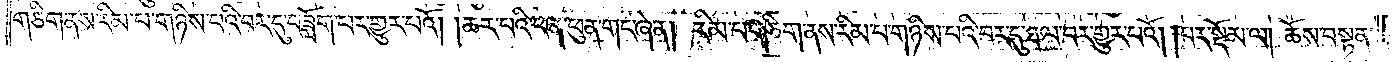གཅིག་ནས་རིམ་པ་གཉིས་པའི་བར་དུ་བཟློག་པར་གྱུར་པའོ། །ཆར་པའི་ཕན་ཕུན་གང་ཞེ་ན། རིམ་པ་གཅིག་ནས་རིམ་པ་གཉིས་པའི་བར་དུ་ཐལ་བར་གྱུར་པའོ། །བར་སྡོམ་ལ། ཆོས་བསྟན་
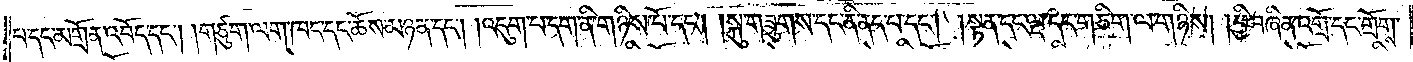པ་དང་མགྲོན་འབོད་དང༌། །གཙུག་ལག་ཁང་དང་ཆོས་མཉན་དང༌། །འདུག་པ་དག་ནི་གཉིས་པོ་དང༌། །སྐུ་གཟུགས་དང་ནི་ནད་པ་དང༌། །སྟན་དང་ལྔ་དང་གཅིག་ལ་གཉིས། །ཕྱི་བཞིན་འགྲོ་དང་གྲོགས་
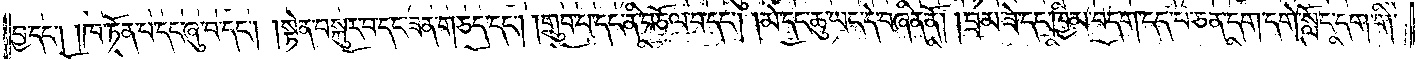བྱ་དང༌། །ཁ་ཏོན་པ་དང་ཞུ་བ་དང༌། །སྟེན་བསྐུར་བ་དང་ཟན་གཅད་དང༌། །གྲུབ་པ་དང་ནི་བཅོལ་བ་དང༌། །མེ་དང་ཆུ་ཡང་དེ་བཞིན་ནོ། །བྲམ་ཟེ་དང་ཁྱིམ་བདག་དད་པ་ཅན་དག་དགེ་སློང་དག་གི་
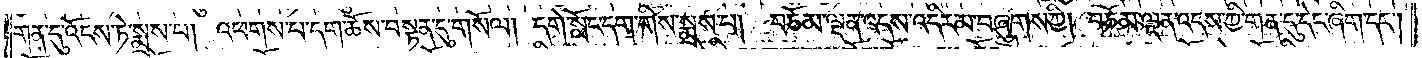གན་དུ་འོངས་ཏེ་སྨྲས་པ། འཕགས་པ་དག་ཆོས་བསྟན་དུ་གསོལ། དགེ་སློང་དག་གིས་སྨྲས་པ། བཅོམ་ལྡན་འདས་འདིར་མ་བཞུགས་ཀྱི། བཅོམ་ལྡན་འདས་ཀྱི་གན་དུ་དེང་ཞིག་དང༌།
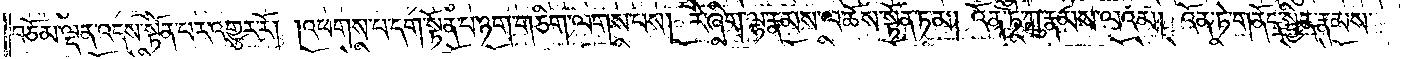བཅོམ་ལྡན་འདས་སྟོན་པར་འགྱུར་རོ། །འཕགས་པ་དག་སྟོན་པ་ཉག་གཅིག་ལགས་པས། རེ་ཞིག་ལྷ་རྣམས་ལ་ཆོས་སྟོན་ཏམ། འོན་ཏེ་ཀླུ་རྣམས་ལའམ། འོན་ཏེ་གནོད་སྦྱིན་རྣམས་
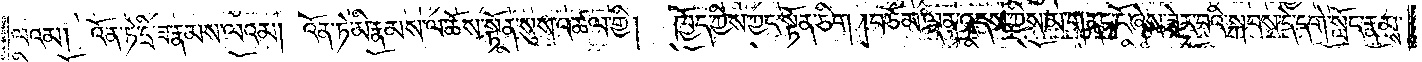ལའམ། འོན་ཏེ་དྲི་ཟ་རྣམས་ལའམ། འོན་ཏེ་མི་རྣམས་ལ་ཆོས་སྟོན་སུས་འཚལ་གྱི། ཁྱོད་ཀྱིས་ཀྱང་སྟོན་ཅིག །བཅོམ་ལྡན་འདས་ཀྱིས་མ་གནང་ངོ་ཞེས་ཟེར་བའི་སྐབས་དེ་དགེ་སློང་རྣམས་
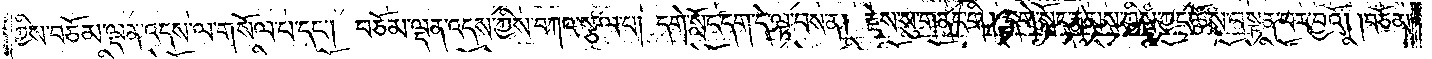ཀྱིས་བཅོམ་ལྡན་འདས་ལ་གསོལ་པ་དང༌། བཅོམ་ལྡན་འདས་ཀྱིས་བཀའ་སྩལ་པ། དགེ་སློང་དག་དེ་ལྟ་བས་ན། རྗེས་སུ་གནང་གི །དགེ་སློང་རྣམས་ཀྱིས་ཀྱང་ཆོས་བསྟན་པར་བྱའོ། །བཅོམ་
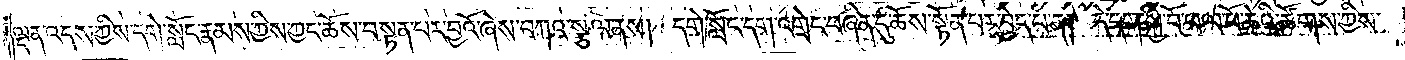ལྡན་འདས་ཀྱིས་དགེ་སློང་རྣམས་ཀྱིས་ཀྱང་ཆོས་བསྟན་པར་བྱའོ་ཞེས་བཀའ་སྩལ་ནས། དགེ་སློང་དག་འགྲེང་བཞིན་དུ་ཆོས་སྟོན་པར་བྱེད་པ་ན། དེ་དག་སྐྱེ་བོ་ཕལ་པོ་ཆེའི་ཚོགས་ཀྱིས་
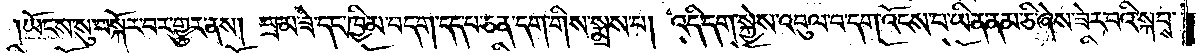ཡོངས་སུ་བསྐོར་བར་གྱུར་ནས། བྲམ་ཟེ་དང་ཁྱིམ་བདག་དད་པ་ཅན་དག་གིས་སྨྲས་པ། འདི་དག་སྐྱེས་འབུལ་བ་དག་འོངས་པ་ཡིན་ནམ་ཅི་ཞེས་ཟེར་བའི་སྐབས་
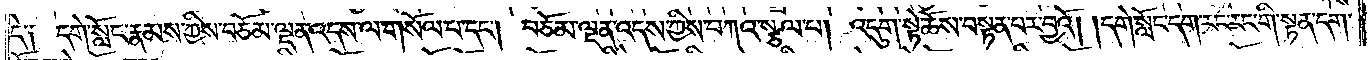དེ༑ དགེ་སློང་རྣམས་ཀྱིས་བཅོམ་ལྡན་འདས་ལ་གསོལ་པ་དང༌། བཅོམ་ལྡན་འདས་ཀྱིས་བཀའ་སྩལ་པ། འདུག་སྟེ་ཆོས་བསྟན་པར་བྱའོ། །དགེ་སློང་དག་རང་རང་གི་སྟན་དག་
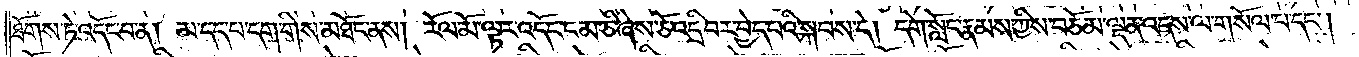ཐོགས་ཏེ་འདོང་བ་ན། མ་དད་པ་དག་གིས་མཐོང་ནས། རོལ་མོ་ལྟར་འདོང་ངམ་ཅི་ཞེས་ཅོ་འདྲི་བར་བྱེད་པའི་སྐབས་དེ། དགེ་སློང་རྣམས་ཀྱིས་བཅོམ་ལྡན་འདས་ལ་གསོལ་པ་དང༌།
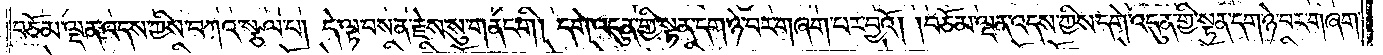བཅོམ་ལྡན་འདས་ཀྱིས་བཀའ་སྩལ་པ། དེ་ལྟ་བས་ན་རྗེས་སུ་གནང་གི། དགེ་འདུན་གྱི་སྟན་དག་ཉེ་བར་གཞག་པར་བྱའོ། །བཅོམ་ལྡན་འདས་ཀྱིས་དགེ་འདུན་གྱི་སྟན་དག་ཉེ་བར་གཞག་
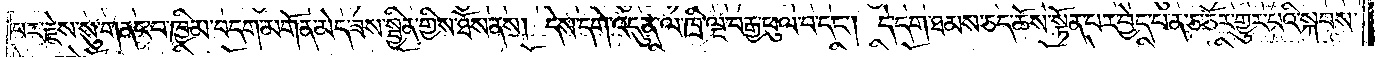པར་རྗེས་སུ་གནང་བ་ཁྱིམ་བདག་མགོན་མེད་ཟས་སྦྱིན་གྱིས་ཐོས་ནས། དེས་དགེ་འདུན་ལ་ཁྲི་ལྔ་བརྒྱ་ཕུལ་བ་དང༌། དེ་དག་ཐམས་ཅད་ཆོས་སྟོན་པར་བྱེད་པ་ན་ཅ་ཅོར་གྱུར་པའི་སྐབས་
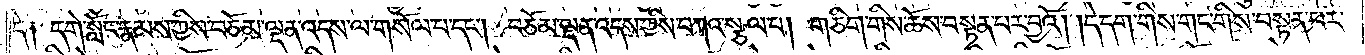དེ། དགེ་སློང་རྣམས་ཀྱིས་བཅོམ་ལྡན་འདས་ལ་གསོལ་པ་དང༌། བཅོམ་ལྡན་འདས་ཀྱིས་བཀའ་སྩལ་པ། གཅིག་གིས་ཆོས་བསྟན་པར་བྱའོ། །དེ་དག་གིས་གང་གིས་བསྟན་པར་
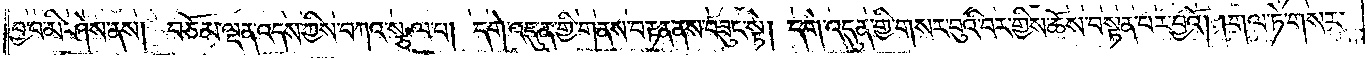བྱ་བ་མི་ཤེས་ནས། བཅོམ་ལྡན་འདས་ཀྱིས་བཀའ་སྩལ་པ། དགེ་འདུན་གྱི་གནས་བརྟན་ནས་བཟུང་སྟེ། དགེ་འདུན་གྱི་གསར་བུའི་བར་གྱིས་ཆོས་བསྟན་པར་བྱའོ། །གལ་ཏེ་གསར་
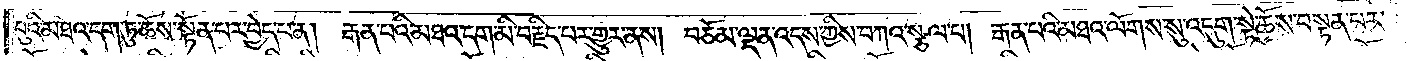བུའི་མཐའ་དག་ཏུ་ཆོས་སྟོན་པར་བྱེད་པ་ན། རྒན་པའི་མཐའ་དག་མི་བརྗིད་པར་གྱུར་ནས། བཅོམ་ལྡན་འདས་ཀྱིས་བཀའ་སྩལ་པ། རྒན་པའི་མཐའ་ལོགས་སུ་འདུག་སྟེ་ཆོས་བསྟན་པར་
